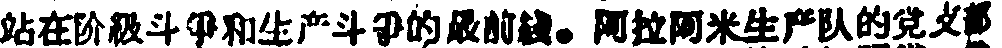站在阶級斗爭和生产斗爭的最前綫。阿拉阿米生产队的党支部
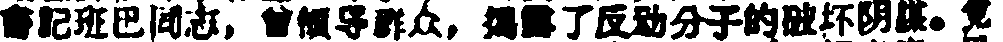書記班巴同志，會領导群众，揭露了反动分子的破坏阴謀。党
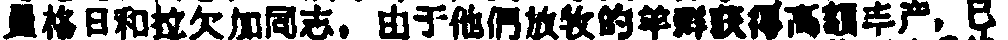員格日和拉欠加同志，由于他們放牧的羊群获得高額丰产，已
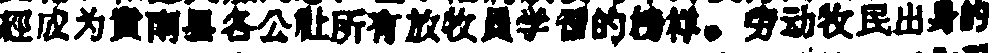經成为貴南县各公社所有放牧員学習的榜样。劳动牧民出身的
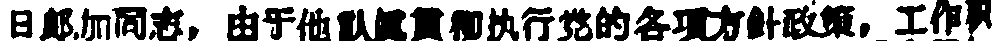日郎加同志，由于他认真貫彻执行党的各項方針政策，工作职
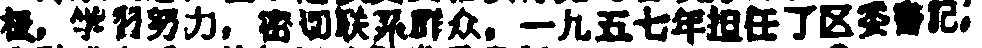权。学習努力，密切联系點众，一九五七年担任了区委書記；
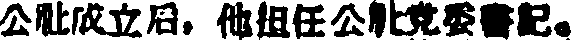公社成立后，他担任公社党委書記。
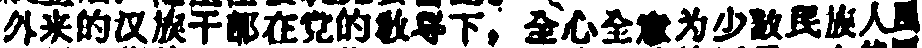外来地汉族干部在党的敎导下，全心全意为少数民族人員
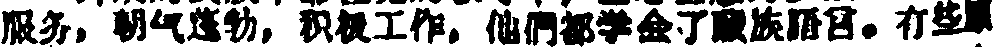服务，朝气蓬勃，积极工作，他們斗学会了藏族語言。有些原
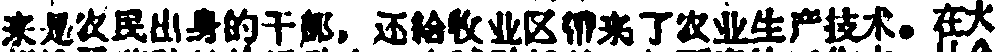来是农民出身的干部，还給牧业区带来了农业生产技术。在大
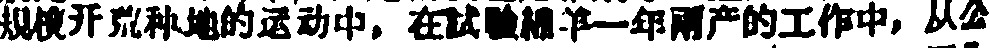規模开荒种地的运动中，在試驗綿羊一年两产的工作中，从公
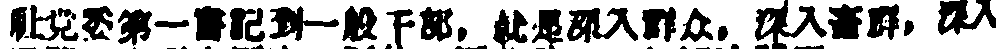社党委第一書記到一般干部，就是深入群众，深入畜群，深入
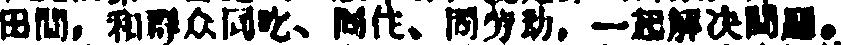田間。和群众同吃、同往、同劳动，一起解决問題。
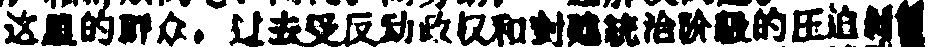这里的群众，过去受反动政权和封建統治阶級的压迫剥削
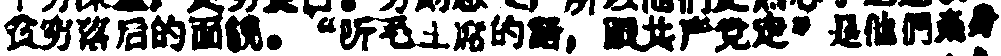貧穷落后的面貌。“听毛土席的話，跟共产党走”是他們亲身
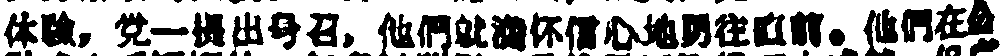体驗，党一提出号召，他們就满怀信心地勇往直前。他們在公
